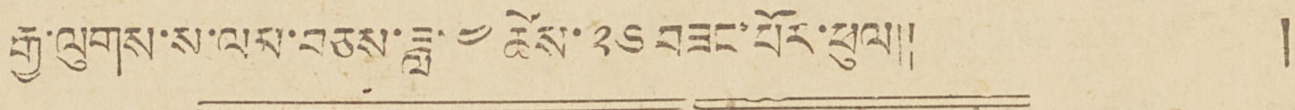རྒྱ་ལུགས་ས་ལམ་བཅས་ཟླ་ ༤ ཚེས་ ༢༦ བཟང་པོར་ཕུལ།། །
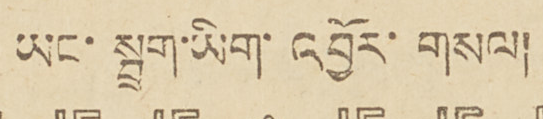ཡང་སྦྲག་ཡིག་འབྱོར་གསལ།
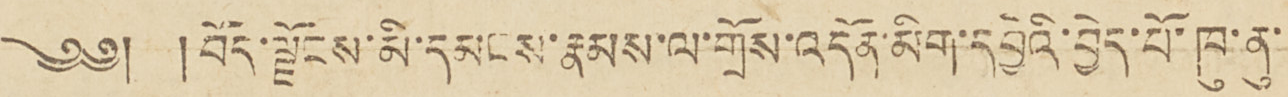༄༅། །བོད་ལྗོངས་མི་དམངས་རྣམས་ལ་གྲོས་འདོན་མིག་དབྱེའི་བྱེད་པོ་ཁུ་ནུ་
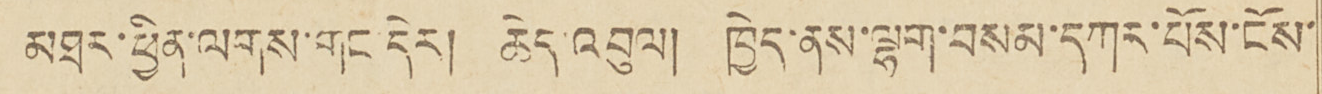མཐར་ཕྱིན་ལགས་གང་དེར། ཆེད་འབུལ། ཁྱེད་ནས་ལྷག་བསམ་དཀར་པོས་ངོས་
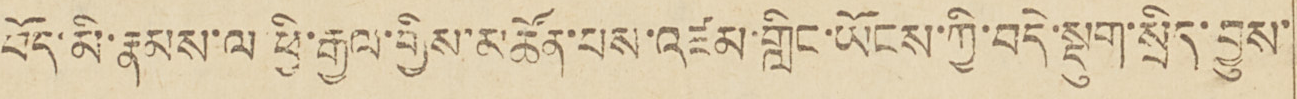བོད་མི་རྣམས་ལ ཕྱི་རྒྱལ་གྱིས་མཚོན་པས་འཛམ་གླིང་ཡོངས་ཀྱི་བདེ་སྡུག་སྲིད་བྱུས་
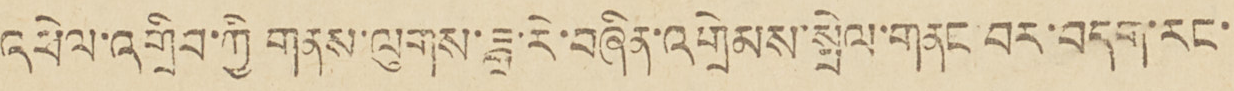འཕེལ་འགྲིབ་ཀྱི གནས་ལུགས་ཟླ་རེ་བཞིན་འགྲེམས་སྤེལ་གནང་བར་བདག་རང་
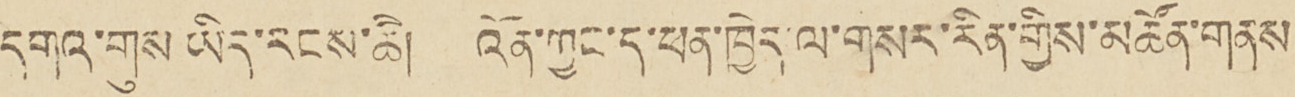དགའ་གུས ཡིད་རངས་ཆཻ། འོན་ཀྱང་ད་ཕན་ཁྱེད་ལ་གསར་རིན་གྱིས་མཚོན་གནས
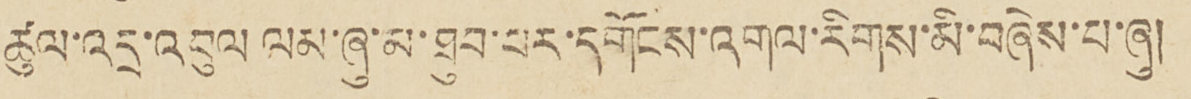ཚུལ་འདྲ་འབུལ ལམ་ཞུ་མ་ཐུབ་པར་དགོངས་འགལ་རིགས་མི་བཞེས་པ་ཞུ།
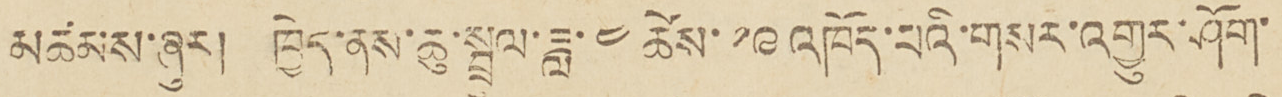མཚམས་ཞུར། ཁྱེད་ནས་ཆུ་སྦྲལ་ཟླ་ ༤ ཚེས་ ༡༩ འཁོད་པའི་གསར་འགྱུར་ཤོག་
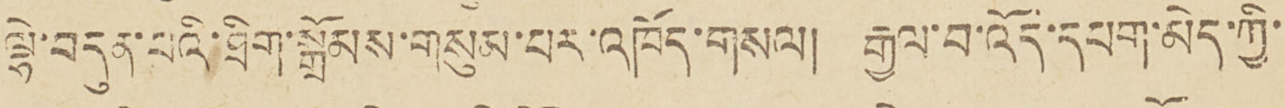ལྷེ་བདུན་པའི་ཐིག་སྒྲོམས་གསུམ་པར་འཁོད་གསལ། རྒྱལ་བ་འོད་དཔག་མེད་ཀྱི་
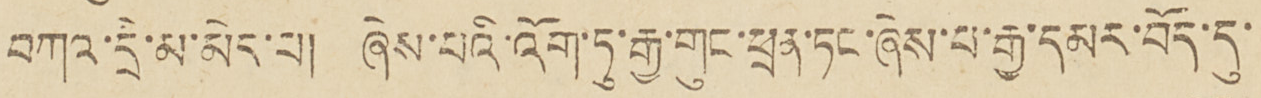བཀའ་དྲི་མ་མེད་པ། ཞེས་པའི་འོག་ཏུ་རྒྱ་གུང་ཕྲན་ཏང་ཞེས་རྒྱ་དམག་བོད་དུ་
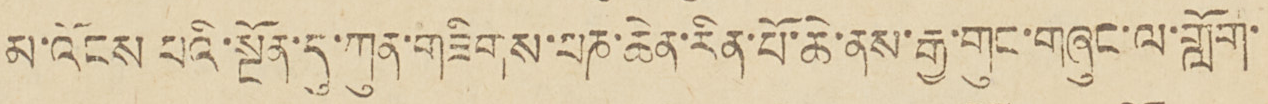མ་འོངས པའི་སྔོན་དུ་ཀུན་གཟིགས་པཎ་ཆེན་རིན་པོ་ཆེ་ནས་རྒྱ་གུང་གཞུང་ལ་གློག་
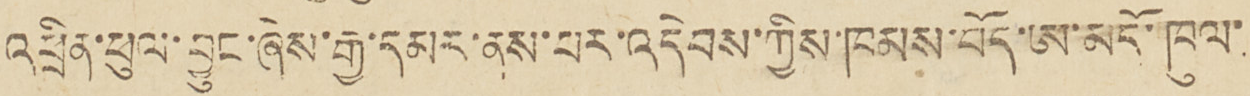འཕྲིན་ཕུལ་བྱུང་ཞེས་རྒྱ་དམར་ནས་པར་འདེབས་ཀྱིས་ཁམས་བོད་ཨ་མདོ་ཁུལ་
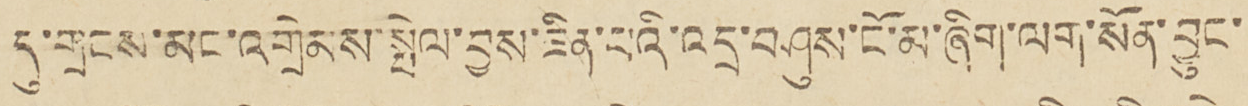དུ་གྲངས་མང་འགྲེམས་སྤེལ་བྱས་ཟིན་པའི་འདྲ་བཤུས་ངོ་མ་ཞིག་ལག་སོན་བྱུང་
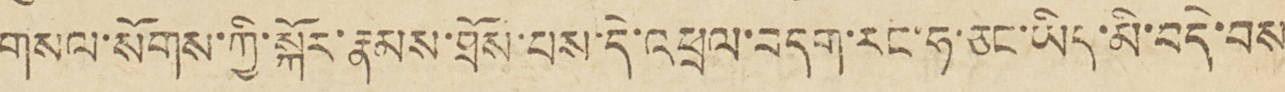གསལ་སོགས་ཀྱི་སྐོར་རྣམས་ཐོས་པས་དེ་འཕྲལ་བདག་རང་ཧ་ཅང་ཡིད་མི་བདེ་བས
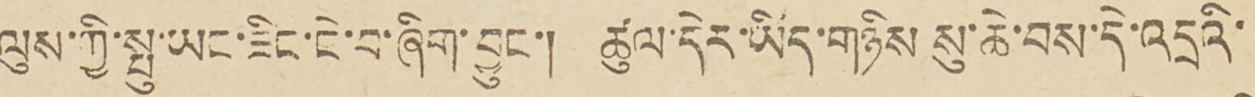ལུས་ཀྱི་སྤུ་ཡང་ཟིང་ངེ་བ་ཞིག་བྱུང་། ཚུལ་དེར་ཡིད་གཉིས སུ་ཆེ་བས་དེ་འདྲའི་
